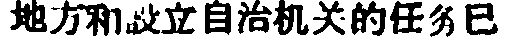地方和設立自治机关的任务已
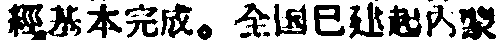經基本完成。全国已建起內蒙
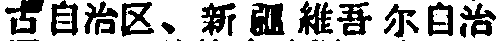古自治区、新疆維吾尔自治
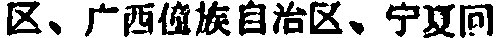区、广西僮族自治区、宁夏回
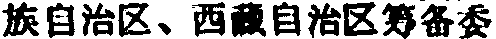族自治区、西藏自治区筹备委
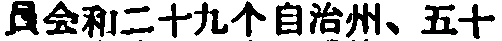員会和二十九个自治州、五十
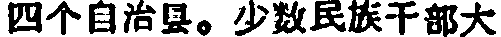四个自治县。少数民族干部大
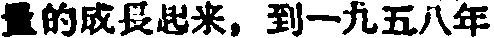量的成長起来，到一九五八年
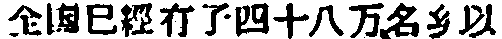全国已經有了四十八万名乡以
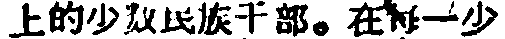上的少数民族干部。在每一少
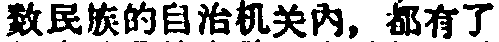数民族的自治机关內，都有了
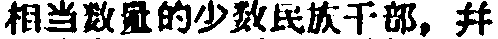相当数量的少数民族干部，并
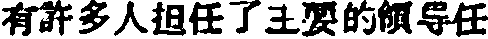有許多人担任了主要的領导任
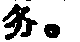务。
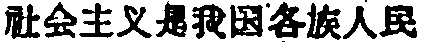社会主义是我国各族人民
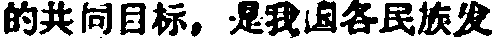的共同目标，是我国各民族发
